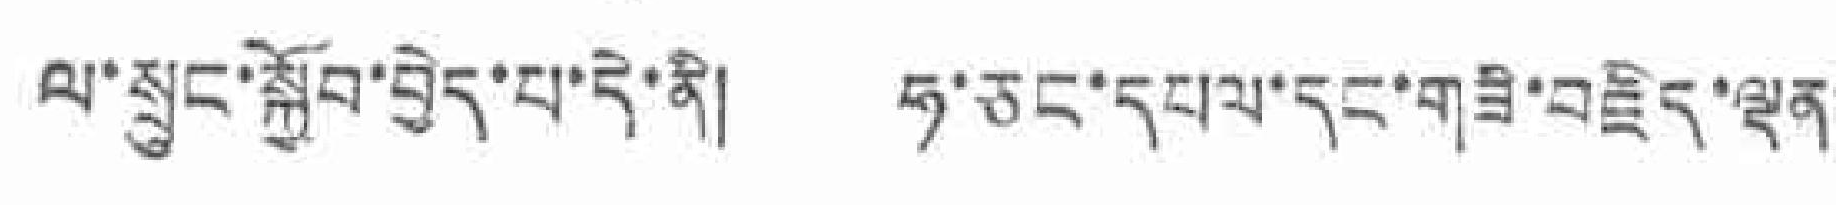ལ་སྲུང་སྐྱོབ་བྱེད་པ་དེ་ནི། ཧ་ཅང་དཔལ་དང་གཟི་བརྗིད་ལྡན་
